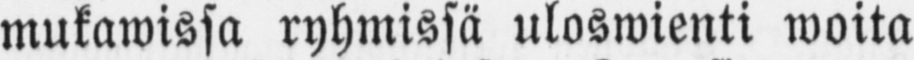mukawissa ryhmissä uloswienti woita
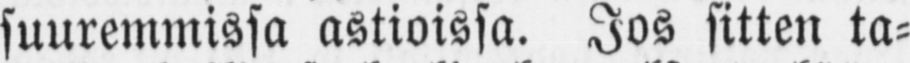suuremmissa astioissa. Jos sitten ta-
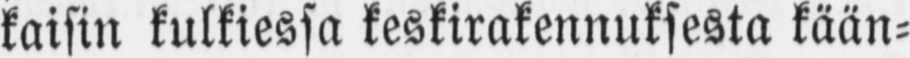kaisin kulkiessa keskirakennuksesta kään-
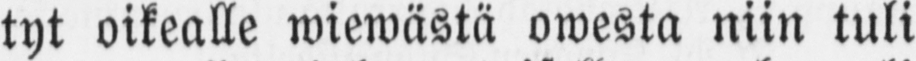tyi oikealle wiewästä owesta niin tuli
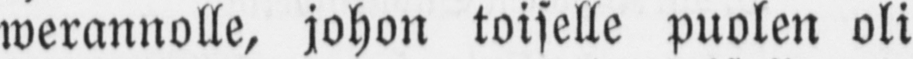werannolle, johon toiselle puolen oli
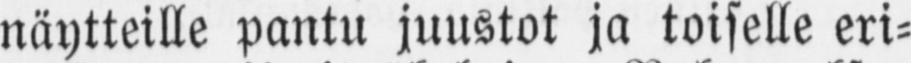näytteille pantu juustot ja toiselle eri-
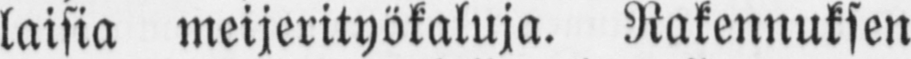laisia meijerityökaluja. Rakennuksen
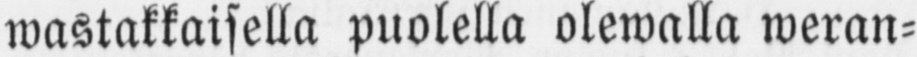wastakkaisella puolella olewalla weran-
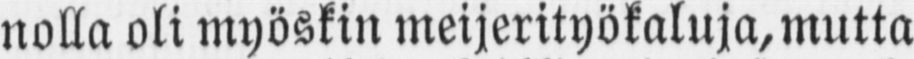nolla oli myöskin meijerityökaluja, mutta
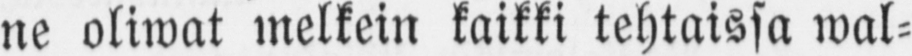ne oliwat melkein kaikki tehtaissa wal-
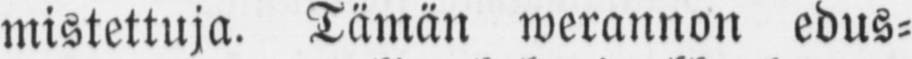mistettuja. Tämän werannon edus-
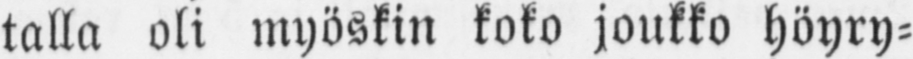talla oli myöskin koko joukko höyry-
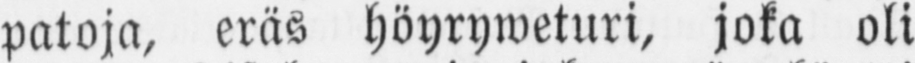patoja, eräs höyryweturi, joka oli
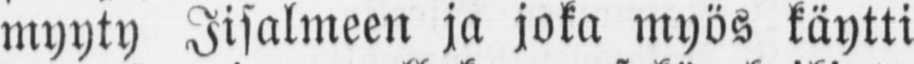myyty Iisalmeen ja joka myös käytti
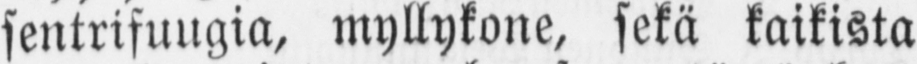sentrifuugia, myllykone, sekä kaikista
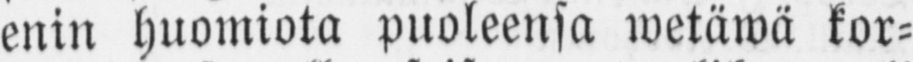enin huomiota puoleensa wetäwä kor-
